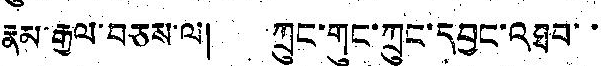རྣམ་རྒྱལ་བཅས་ལ། ཀྲུང་གུང་ཀྲུང་དབྱང་འཐབ་་་
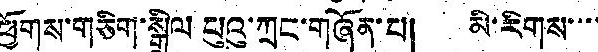ཕྱོགས་གཅིག་སྒྲིལ པུའུ་ཀྲང་གཞོན་པ། མི་རིགས་་་་
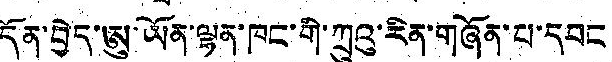དོན་བྱེད་ཨུ་ཡོན་ལྷན་ཁང་གི་ཀྲུའུ་རིན་གཞོན་པ་དབང
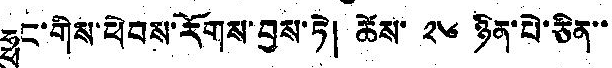ཧྥུང་གིས་ཕེབས་རོགས་བྱས་ཏེ། ཚེས་ ༢༦ ཉིན་པེ་ཅིན་་
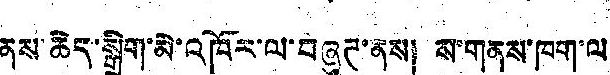ནས་ཆེད་སྒྲིག་མེ་འཁོར་ལ་བཞུཊ་ནས། ས་གནས་ཁག་ལ
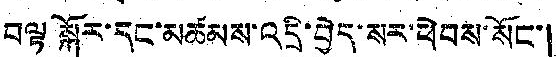བལྟ ལྐོར་དང་མཚམས་འདྲི་བྱེད་སར་ཕེབས་སོང་།
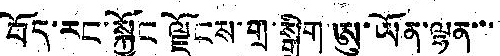བོད་རང་སྐྱོང ལྗོངས་གྲ་སྒྲིག་ཨུ་ཡོན་ལྷན་་་
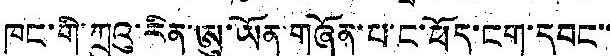ཁང་གི་ཀྲུའུ་རིན་ཨུ་ཡོན་གཞོན་པ་ང་ཕོད་ངག་དབང་་
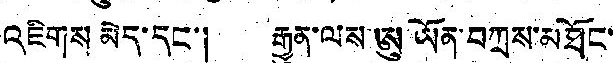འཇིགས་མེད་དང་། རྒྱུན་ལས་ཨུ་ཡོན་བཀྲས་མཐོང་
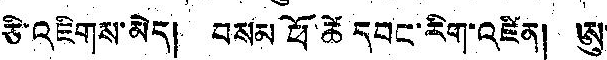ཅི་འཇིགས་མེད། བསམ ཕོ་ཚེ དབང་རིག་འཛིན། ཨུ་
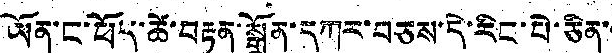ཡོན་ང་ཕོད་ཚེ་བརྟན་སྒྲོན་དཀར་བཅས་དེ་རིང་པེ་ཅིན་་
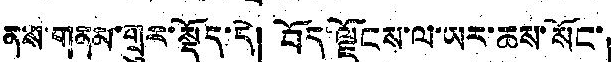ནས་གནམ་གྲུར་སྡོད་དེ། བོད་ལྗོངས་ལ་ཡར་ཆས་སོང་།
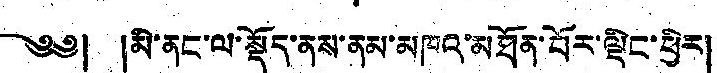༄༅། །མི་ནང་ལ་སྡོད་ནས་ནམ་མཁའ་མཐོན་པོར་ལྡིང་ཕྱིར།
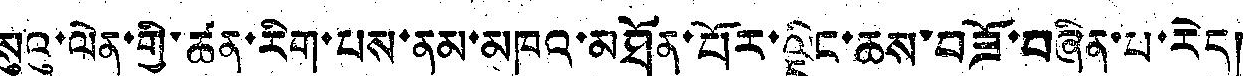སུའུ་ལེན་གྱི་ཚན་རིག་པས་ནམ་མཁའ་མཐོན་པིར་ལྡིང་ཆས་བཟོ་བཞིན་པ་རེད།
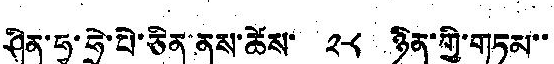ཤིན་ཧྭ་ཧྲེ་པེ་ཅིན་ནས་ཚེས་ ༢༨ ཉིན་གྱི་གཏམ་་
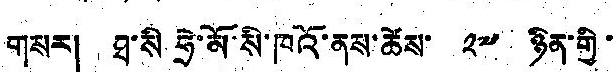གསར། ཐ་སི ཧྲེ་མོ་སི་ཁའོ་ནས་ཚེས་ ༢༧ ཉིན་གྱི་
